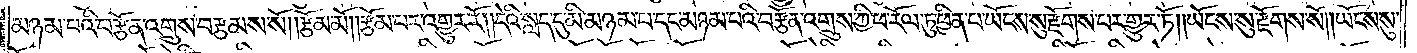མཉམ་པའི་བརྩོན་འགྲུས་བརྩམས་སོ། །རྩོམ་མོ། །རྩོམ་པར་འགྱུར་རོ། །དེའི་སླད་དུ་མི་མཉམ་པ་དང་མཉམ་པའི་བརྩོན་འགྲུས་ཀྱི་ཕ་རོལ་ཏུ་ཕྱིན་པ་ཡོངས་སུ་རྫོགས་པར་གྱུར་ཏོ། །ཡོངས་སུ་རྫོགས་སོ། །ཡོངས་སུ་
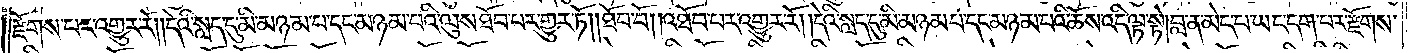རྫོགས་པར་འགྱུར་རོ། །དེའི་སླད་དུ་མི་མཉམ་པ་ཉམས་པའི་ལུས་ཐོབ་པར་གྱུར་ཏོ། །ཐོབ་བོ། །འཐོབ་པར་འགྱུར་རོ། །དེའི་སླད་དུ་མི་མཉམ་པ་དང་མཉམ་པའི་ཆོས་འདི་ལྟ་སྟེ། བླ་ན་མེད་པ་ཡང་དག་པར་རྫོགས་
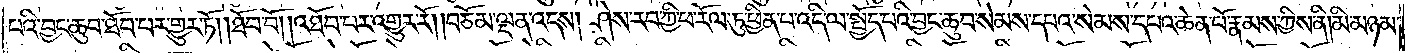པའི་བྱང་ཆུབ་ཐོབ་པར་གྱུར་ཏོ། །ཐོབ་བོ་།འཐོབ་པར་འགྱུར་རོ། །བཅོམ་ལྡན་འདས། ཤེས་རབ་ཀྱི་ཕ་རོལ་ཏུ་ཕྱིན་པ་འདི་ལ་སྤྱོད་པའི་བྱང་ཆུབ་སེམས་དཔའ་སེམས་དཔའ་ཆེན་པོ་རྣམས་ཀྱིས་ནི། མི་མཉམ་
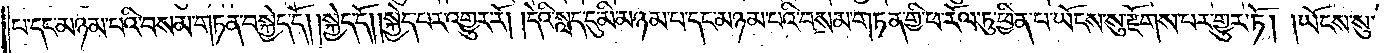པ་དང་མཉམ་པའི་བསམ་གཏན་བསྐྱེད་དོ། །སྐྱེད་དོ། །སྐྱེད་པར་འགྱུར་རོ། །དེའི་སླད་དུ་མི་མཉམ་པ་དང་མཉམ་པའི་བསམ་གཏན་གྱི་ཕ་རོལ་ཏུ་ཕྱིན་པ་ཡོངས་སུ་རྫོགས་པར་གྱུར་ཏོ། །ཡོངས་སུ་
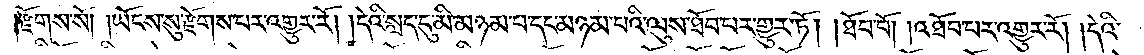རྫོགས་སོ། །ཡོངས་སུ་རྫོགས་པར་འགྱུར་རོ། །དེའི་སླད་དུ་མི་མཉམ་པ་དང་མཉམ་པའི་ལུས་ཐོབ་པར་གྱུར་ཏོ། །ཐོབ་བོ། །འཐོབ་པར་འགྱུར་རོ། །དེའི་
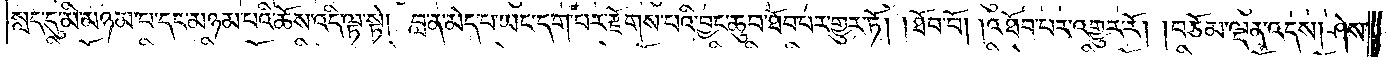སླད་དུ་མི་མཉམ་པ་དང་མཉམ་པའི་ཆོས་འདི་ལྟ་སྟེ། བླ་ན་མེད་པ་ཡང་དག་པར་རྫོགས་པའི་བྱང་ཆུབ་ཐོབ་པར་གྱུར་ཏོ། །ཐོབ་བོ། །འཐོབ་པར་འགྱུར་རོ། །བཅོམ་ལྡན་འདས། ཤེས་
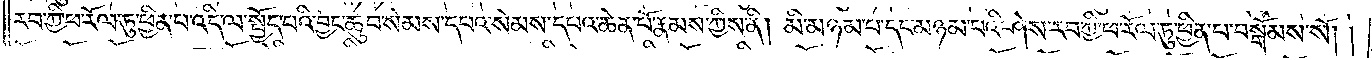རབ་ཀྱི་ཕ་རོལ་ཏུ་ཕྱིན་པ་འདི་ལ་སྤྱོད་པའི་བྱང་ཆུབ་སེམས་དཔའ་སེམས་དཔའ་སེམས་དཔའ་ཆེན་པོ་རྣམས་ཀྱིས་ནི། མི་མཉམ་པ་དང་མཉམ་པའི་ཤེས་རབ་ཀྱི་ཕ་རོལ་ཏུ་ཕྱིན་པ་བསྒོམས་སོ། །
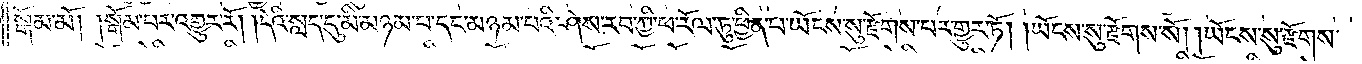སྒོམ་མོ། །སྒོམ་པར་འགྱུར་རོ། །དེའི་སླད་དུ་མི་མཉམ་པ་དང་མཉམ་པའི་ཤེས་རབ་ཀྱི་ཕ་རོལ་ཏུ་ཕྱིན་པ་ཡོངས་སུ་རྫོགས་པར་གྱུར་ཏོ། །ཡོངས་སུ་རྫོགས་སོ། །ཡོངས་སུ་རྫོགས་
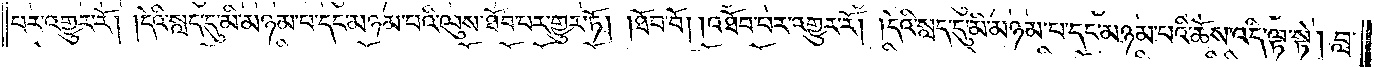པར་འགྱུར་རོ། །དེའི་སླད་དུ་མི་མཉམ་པ་དང་མཉམ་པའི་ལུས་ཐོབ་པར་གྱུར་ཏོ། །ཐོབ་བོ། །འཐོབ་པར་འགྱུར་རོ། །དེའི་སླད་དུ་མི་མཉམ་པ་དང་མཉམ་པའི་ཆོས་འདི་ལྟ་སྟེ། བླ་
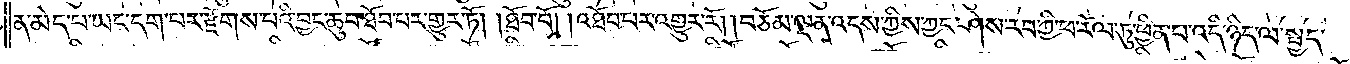ན་མེད་པ་ཡང་དག་པར་རྫོགས་པའི་བྱང་ཆུབ་ཐོབ་པར་གྱུར་ཏོ། །ཐོབ་བོ། །འཐོབ་པར་འགྱུར་རོ། །བཅོམ་ལྡན་འདས་ཀྱིས་ཀྱང་ཤེས་རབ་ཀྱི་ཕ་རོལ་ཏུ་ཕྱིན་པ་འདི་ཉིད་ལ་སྤྱད་
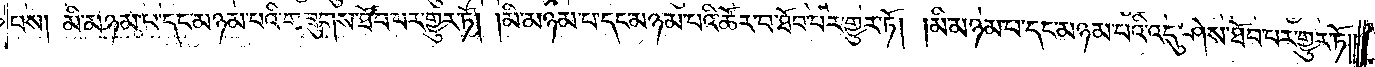པས། མི་མཉམ་པ་དང་མཉམ་པའི་གཟུགས་ཐོབ་པར་གྱུར་ཏོ། །མི་མཉམ་པ་དང་མཉམ་པའི་ཚོར་བ་ཐོབ་པར་གྱུར་ཏོ། །མི་མཉམ་པ་དང་མཉམ་པའི་འདུ་ཤེས་ཐོབ་པར་གྱུར་ཏོ༎
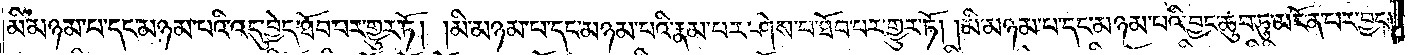མི་མཉམ་པ་དང་མཉམ་པའི་འདུ་བྱེད་ཐོབ་པར་གྱུར་ཏོ། །མི་མཉམ་པ་དང་མཉམ་པའི་རྣམ་པར་ཤེས་པ་ཐོབ་པར་གྱུར་ཏོ། །མི་མཉམ་པ་དང་མཉམ་པའི་བྱང་ཆུབ་ཏུ་མངོན་པར་བྱང་
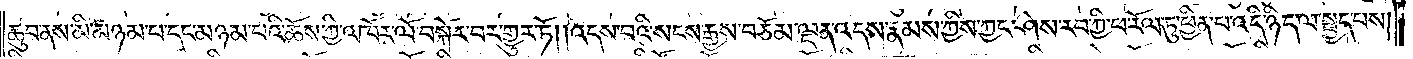ཆུབ་ནས་མི་མཉམ་པ་དང་མཉམ་པའི་ཆོས་ཀྱི་འཁོར་ལོ་བསྐོར་བར་གྱུར་ཏོ། །འདས་པའི་སངས་རྒྱས་བཅོམ་ལྡན་འདས་རྣམས་ཀྱིས་ཀྱང་ཤེས་རབ་ཀྱི་ཕ་རོལ་ཏུ་ཕྱིན་པ་འདི་ཉིད་ལ་སྤྱད་པས།
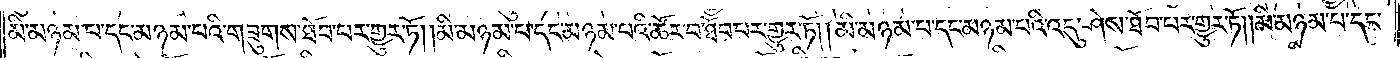མི་མཉམ་པ་དང་མཉམ་པའི་གཟུགས་ཐོབ་པར་གྱུར་ཏོ། །མི་མཉམ་པ་དང་མཉམ་པའི་ཚོར་བ་ཐོབ་པར་གྱུར་ཏོ། །མི་མཉམ་པ་དང་མཉམ་པའི་འདུ་ཤེས་ཐོབ་པར་གྱུར་ཏོ། །མི་མཉམ་པ་དང་
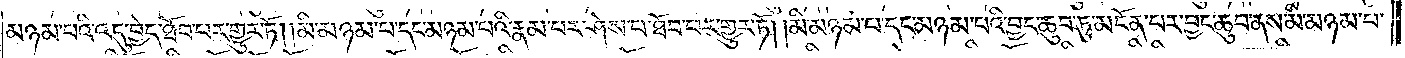མཉམ་པའི་འདུ་བྱེད་ཐོབ་པར་གྱུར་ཏོ། །མི་མཉམ་པ་དང་མཉམ་པའི་རྣམ་པར་ཤེས་པ་ཐོབ་པར་གྱུར་ཏོ། །མི་མཉམ་པ་དང་མཉམ་པའི་བྱང་ཆུབ་ཏུ་མངོན་པར་བྱང་ཆུབ་ནས་མི་མཉམ་པ་
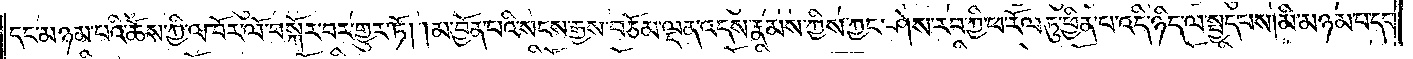དང་མཉམ་པའི་ཆོས་ཀྱི་འཁོར་ལོ་བསྐོར་བར་གྱུར་ཏོ། །མ་བྱོན་པའི་སངས་རྒྱས་བཅོམ་ལྡན་འདས་རྣམས་ཀྱིས་ཀྱང་ཤེས་རབ་ཀྱི་ཕ་རོལ་ཏུ་ཕྱིན་པ་འདི་ཉིད་ལ་སྤྱད་པས། མི་མཉམ་པ་དང་
